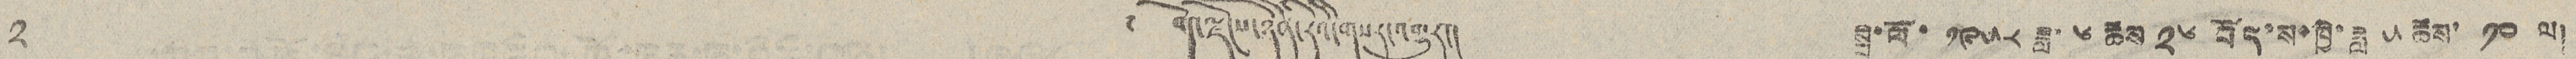༢ ༄ བོད་ལྗོངས་ཉིན་རེའི་གསར་འགྱུར། སྤྱི་ལོ་ ༡༩༥༨ ཟླ་ ༦ ཚེས ༢༦ བོད་ས་ཁྱི་ཟླ ༥ ཚེས་ ༡༠ ལ།
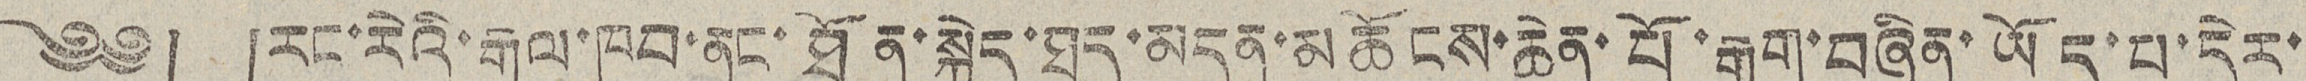༄༅། །རང་རེའི་རྒྱལ་ཁབ་ནང་ཐོན་སྐྱེད་ཐད་མདུན་མཆོངས་ཆེན་པོ་རྒྱག་བཞིན་ཡོད་པ་དེར་
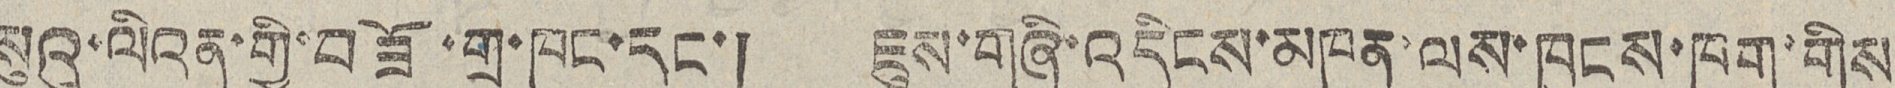སུའུ་ལིའན་གྱི་བཟོ་གྲ་ཁང་དང་། ཇུས་གཞི་འདིངས་མཁན་ལས་ཁུངས་ཁག་གིས་
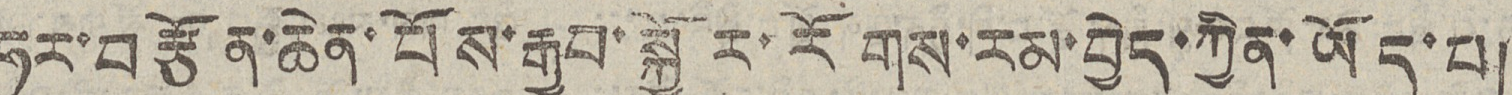ཧུར་བརྩོན་ཆེན་པོས་རྒྱབ་སྐྱོར་རོགས་རམ་བྱེད་ཀྱིན་ཡོད་པ།
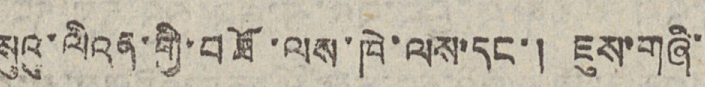སུའུ་ལིའན་གྱི་བཟོ་ལས་ཁེ་ལས་དང་། ཇུས་གཞི་
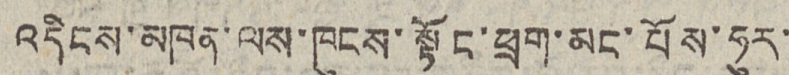འདིངས་མཁན་ལས་ཁུངས་སྟོང་ཕྲག་མང་པོས་ཧུར་
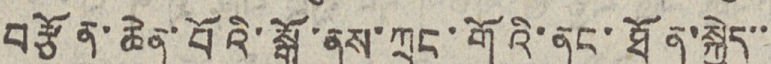བརྩོན་ཆེན་པོའི་སྒོ་ནས་ཀྲུང་གོའི་ནང་ཐོན་སྐྱེད་་་
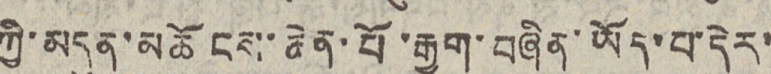ཀྱི་མདུན་མཆོངས་ཆེན་པོ་རྒྱག་བཞིན་ཡོད་པ་དེར་
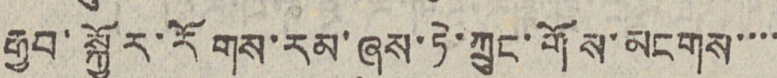རྒྱབ་སྐྱོར་རོགས་རམ་ཞུས་ཏེ་ཀྲུང་གོས་མངགས་་་་
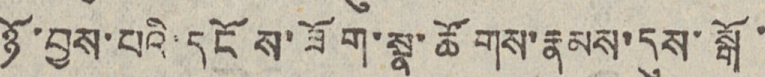ཉོ་བྱས་པའི་དངོས་ཟོག་སྣ་ཚོགས་རྣམས་དུས་སྒོ་
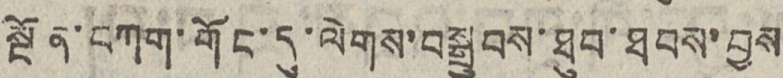སྔོན་བཀག་གོང་དུ་ལེགས་བསྒྲུབས་ཐུབ་ཐབས་བྱས
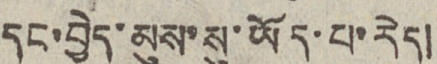དང་བྱེད་མུས་སུ་ཡོད་པ་རེད།
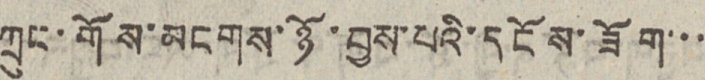ཀྲུང་གོས་མངགས་ཉོ་བྱས་པའི་དངོས་ཟོག་་་
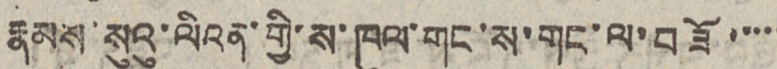རྣམས་སུའུ་ལིའན་གྱི་ས་ཁུལ་གང་ས་གང་ལ་བཟོ་་་་་
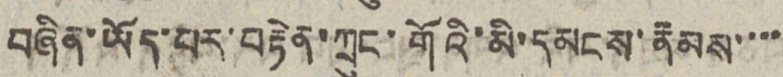བཞིན་ཡོད་པར་བརྟེན་ཀྲུང་གོའི་མི་དམངས་རྣམས་་་་
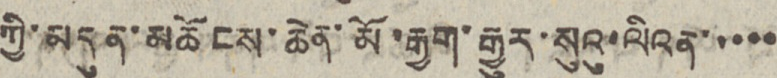ཀྱི་མདུན་མཆོངས་ཆེན་མོ་རྒྱག་རྒྱུར་སུའུ་ལིའན་་་་་
